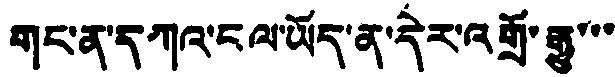གང་ན་དཀའ་ངལ་ཡོད་ན་དེར་འགྲོ་རྒྱུ་་་
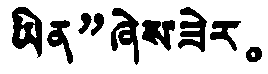ཡིན”ཞེས་ཟེར。
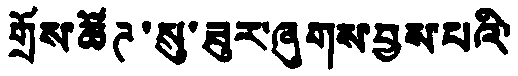གྲོས་ཚོཊ་སུ་ཟུར་ཞུགས་བྱས་པའི་
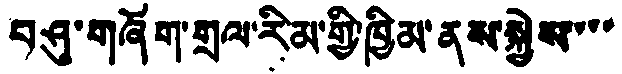བཤུ་གཞོག་གྲལ་རིམ་གྱི་ཁྱིམ་ནས་སྐྱེས་་་
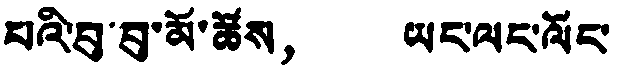པའི་བུ་བུ་མོ་ཚོས， ཡང་ལང་ལོང་
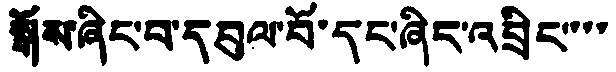སྒོས་ཞིང་བ་དབུལ་པོ་དང་ཞིང་འབྲིང་་་་
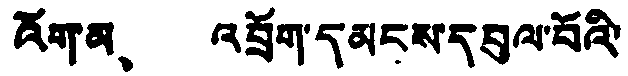འོག་མ、 འབྲོག་དམངས་དབུལ་བོའི་
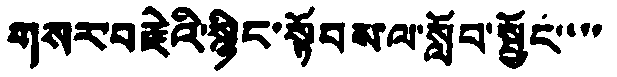གསར་བརྗེའི་སྙིང་སྟོབས་ལ་སློབ་སྦྱོང་་་་
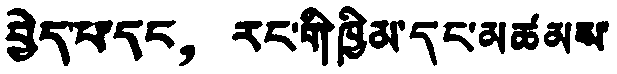བྱེད་པ་དང， རང་གི་ཁྱིམ་དང་མཚམས་
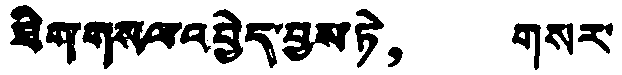ཟིག་གསལ་འབྱེད་བྱས་ཏེ， གསར་
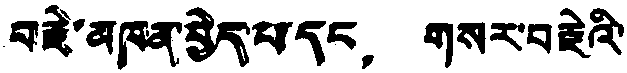བརྗེ་མཁན་བྱེད་པ་དང， གསར་བརྗེའི་
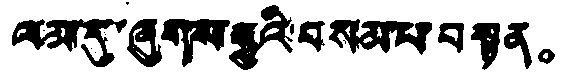ལམ་དུ་ཞུགས་རྒྱུའི་བསམ་པ་བསྟན。
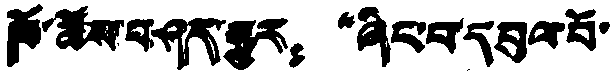ཁོ་ཚོས་བ་ཤད་གྱུར： “ཞིང་པ་དབུལ་བོ་
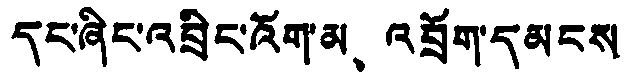དང་ཞིང་འབྲིང་འོག་མ、 འབྲོག་དམངས
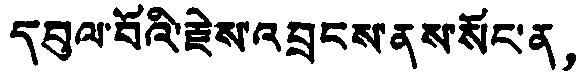དབུལ་བོའི་རྗེས་འབྲངས་ནས་སོང་ན，
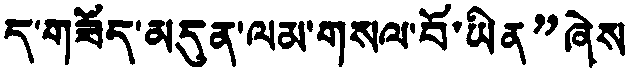ད་གཟོད་མདུན་ལམ་གསལ་བོ་ཡིན”ཞེས
